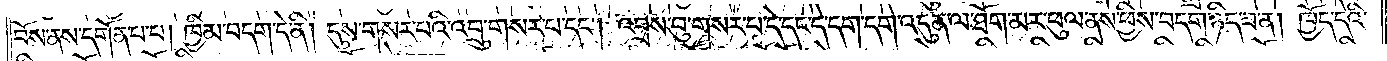བོས་ནས་དགོན་པ་པ། ཁྱིམ་བདག་དེ་ནི། དུས་གསར་པའི་འབྲུ་གསར་པ་དང༌། འབྲས་བུ་གསར་པ་དེ་དང་དེ་དག་དགེ་འདུན་ལ་ཐོག་མར་ཕུལ་ནས་ཕྱིས་བདག་ཉིད་ཟ་ན། ཁྱོད་དེའི་
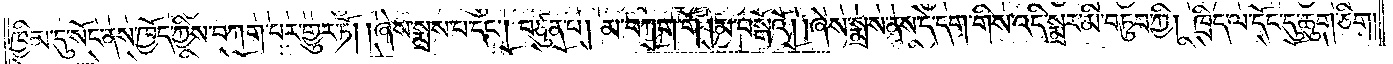ཁྱིམ་དུ་སོང་ནས་ཁྱོད་ཀྱིས་བཀག་པར་གྱུར་ཏོ། །ཞེས་སྨྲས་པ་དང༌། བཙུན་པ། མ་བཀག་གོ །མ་བསྒོའོ། །ཞེས་སྨྲས་ནས་དེ་དག་གིས་འདི་སྨྲར་མི་བཏུབ་ཀྱི། ཁྲིད་ལ་དོང་དུ་ཆུག་ཅིག།
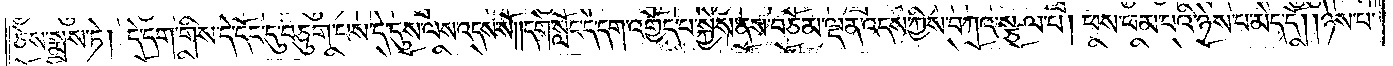ཅེས་སྨྲས་ཏེ། དེ་དག་གིས་དེ་དོང་དུ་བཅུག་པས་དེ་དུས་ལས་འདས་སོ། །དགེ་སློང་དེ་དག་འགྱོད་པ་སྐྱེས་ནས་བཅོམ་ལྡན་འདས་ཀྱིས་བཀའ་སྩལ་པ། ཕས་ཕམ་པའི་ཉེས་པ་མེད་དོ། །ཉེས་པ་
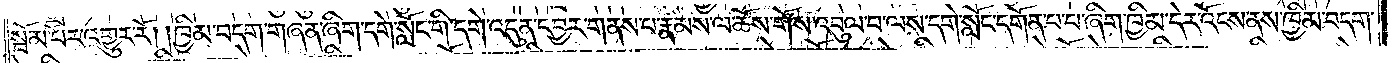སྦོམ་པོར་འགྱུར་རོ། །ཁྱིམ་བདག་གཞན་ཞིག་དགེ་སློང་གི་དགེ་འདུན་དབྱར་གནས་པ་རྣམས་ལ་ཆོས་གོས་འབུལ་བ་ལས་དགེ་སློང་དགོན་པ་པ་ཞིག་ཁྱིམ་དེར་འོངས་ནས་ཁྱིམ་བདག་
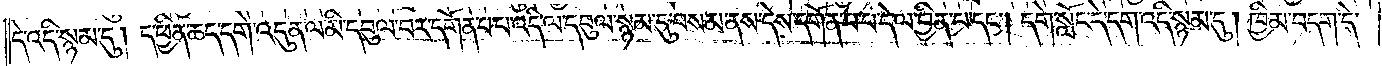དེ་འདི་སྙམ་དུ། ད་ཕྱིན་ཆད་དགེ་འདུན་ལ་མི་དབུལ་བར་དགོན་པ་པ་འདི་ལ་དབུལ་སྙམ་དུ་བསམ་ནས་དེས་དགོན་པ་པ་དེ་ལ་བྱིན་པ་དང༌། དགེ་སློང་དེ་དག་འདི་སྙམ་དུ། ཁྱིམ་བདག་དེ་
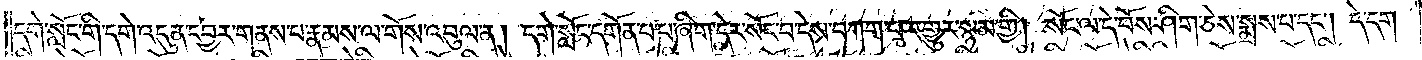དགེ་སློང་གི་དགེ་འདུན་དབྱར་གནས་པ་རྣམས་ལ་གོས་འབུལ་ན། དགེ་སློང་དགོན་པ་པ་ཞིག་དེར་སོང་བ་དེས་བཀག་པར་གྱུར་སྙམ་གྱི། སོང་ལ་དེ་བོས་ཤིག་ཅེས་སྨྲས་པ་དང༌། དེ་དག་
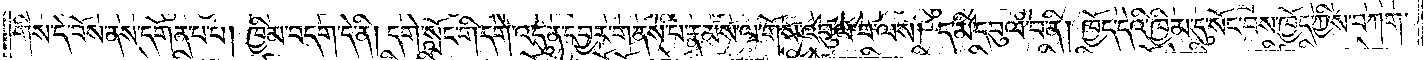གིས་དེ་བོས་ནས་དགོན་པ་པ། ཁྱིམ་བདག་དེ་ནི། དགེ་སློང་གི་དགེ་འདུན་དབྱར་གནས་པ་རྣམས་ལ་གོས་འབུལ་བ་ལས། ད་མི་དབུལ་བ་ནི། ཁྱོད་དེའི་ཁྱིམ་དུ་སོང་བས་ཁྱོད་ཀྱིས་བཀག་
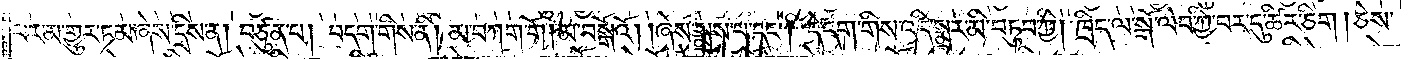པར་མ་གྱུར་ཏམ་ཞེས་དྲིས་ན། བཙུན་པ། བདག་གིས་ནི། མ་བཀག་གོ །མ་བསྒོའོ། །ཞེས་སྨྲས་པ་དང༌། དེ་དག་གིས་འདི་སྨྲར་མི་བཏུབ་ཀྱི། ཁྲིད་ལ་སྒོ་ལེབ་ཀྱི་བར་དུ་ཚིར་ཅིག །ཅེས་
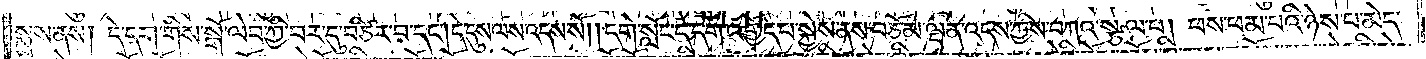སྨྲས་ནས། དེ་དག་གིས་སྒོ་ལེབ་ཀྱི་བར་དུ་བཙིར་བ་དང༌། དེ་དུས་ལས་འདས་སོ། །དགེ་སློང་དེ་དག་འགྱོད་པ་སྐྱེས་ནས་བཅོམ་ལྡན་འདས་ཀྱིས་བཀའ་སྩལ་པ། ཕས་ཕམ་པའི་ཉེས་པ་མེད་
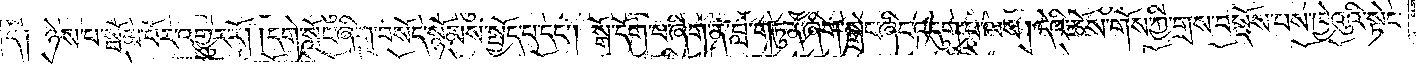དེ༑ ཉེས་པ་སྦོམ་པོར་འགྱུར་རོ། །དགེ་སློང་ཞིག་བསོད་སྙོམས་སྤྱོད་པ་དང༌། སྒོ་དོག་པ་ཞིག་ན་བླ་གཏུན་ཞིག་སྒྲེང་ཞིང་འདུག་པ་ལས། དེའི་ཆོས་གོས་ཀྱི་གྲས་བསྡོས་པས་ཁྱེའུའི་སྟེང་
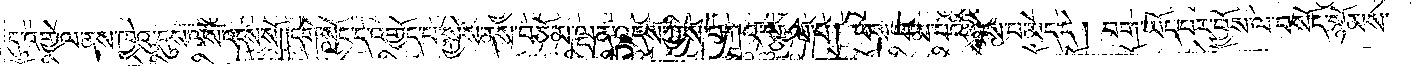དུ་འགྱེལ་ནས་ཁྱེའུ་དུས་ལས་འདས་སོ། །དགེ་སློང་དེ་འགྱོད་པ་སྐྱེས་ནས་བཅོམ་ལྡན་འདས་ཀྱིས་བཀའ་སྩལ་པ། ཕས་ཕམ་པའི་ཉེས་པ་མེད་དེ། བག་ཡོད་པར་བྱོས་ལ་བསོད་སྙོམས་
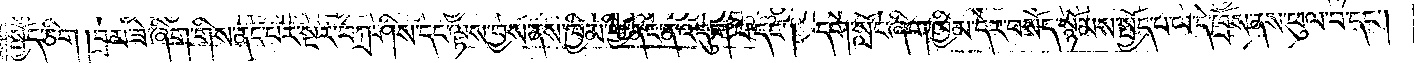སྤྱོད་ཅིག །བྲམ་ཟེ་ཞིག་གིས་ནང་པར་སྔར་བཀྲ་ཤིས་དང་ལྟས་བྱས་ནས་ཁྱིམ་གྱི་ནང་ན་འདུག་པ་དང༌། དགེ་སློང་ཞིག་ཁྱིམ་དེར་བསོད་སྙོམས་སྤྱོད་པ་ལ་དེ་ཁྲོས་ནས་ཕུལ་བ་དང༌།
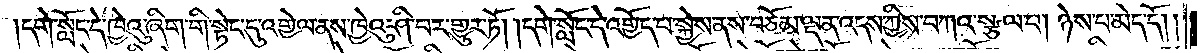དགེ་སློང་དེ་ཁྱེའུ་ཞིག་གི་སྟེང་དུ་འགྱེལ་ནས་ཁྱེའུ་ཤི་བར་གྱུར་ཏོ། །དགེ་སློང་དེ་འགྱོད་པ་སྐྱེས་ནས་བཅོམ་ལྡན་འདས་ཀྱིས་བཀའ་སྩལ་པ། ཉེས་པ་མེད་དོ། །
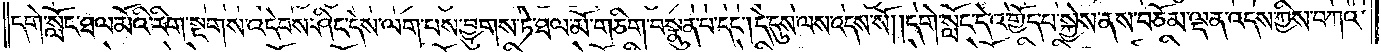དགེ་སློང་ཐལ་མོའི་རིག་སྔགས་འདེབས་ཤིང་དེས་ལག་པས་བྱུགས་ཏེ་ཐལ་མོ་གཅིག་བསྣུན་པ་དང༌། དེ་དུས་ལས་འདས་སོ། །དགེ་སློང་དེ་འགྱོད་པ་སྐྱེས་ནས་བཅོམ་ལྡན་འདས་ཀྱིས་བཀའ་
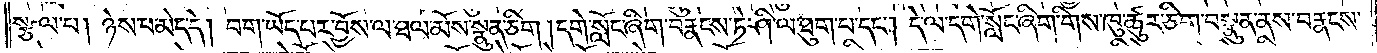སྩལ་པ། ཉེས་པ་མེད་དེ། བག་ཡོད་པར་བྱོས་ལ་ཐལ་མོས་སྣུན་ཅིག །དགེ་སློང་ཞིག་བརྣངས་ཏེ་ཤི་ལ་ཐུག་པ་དང༌། དེ་ལ་དགེ་སློང་ཞིག་གིས་ཁུ་ཚུར་ཅིག་བསྣུན་ནས་བརྣངས་
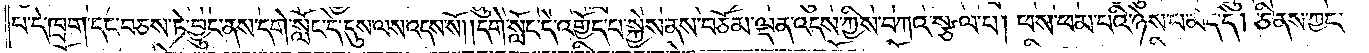པ་དེ་ཁྲག་དང་བཅས་ཏེ་བྱུང་ནས་དགེ་སློང་དེ་དུས་ལས་འདས་སོ། །དགེ་སློང་དེ་འགྱོད་པ་སྐྱེས་ནས་བཅོམ་ལྡན་འདས་ཀྱིས་བཀའ་སྩལ་པ། ཕས་ཕམ་པའི་ཉེས་པ་མེད་དེ། ཅི་ནས་ཀྱང་
